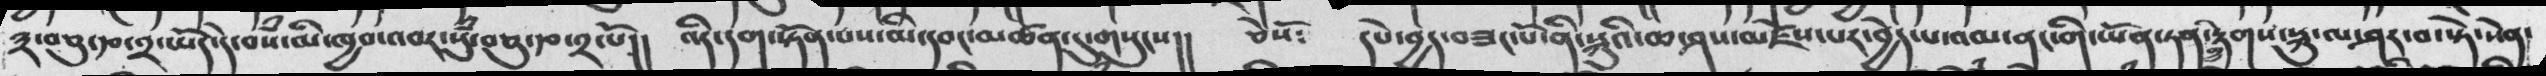༣་བཅུ་རྩ་༢་ཡོད་དེ་བསཾ་མི་ཁྱབ་འབར་སུཾ་བཅུ་རྩ་༢་པོ།།  འདི་དག་སྟོན་པས་མི་དབང་མཚན་དུ་གསུངས།།  ཅེསོ༴   དཔེ་བྱད་བཟང་པོ་ན་སྐུའི་ཆ་ཤས་མཛེས་པར་བྱེད་པ་འམ་ནང་གི་ཡོན་ཏན་གྱི་རྟགས་སྐུ་ལ་ཤར་བ་སྟེ་སེན་
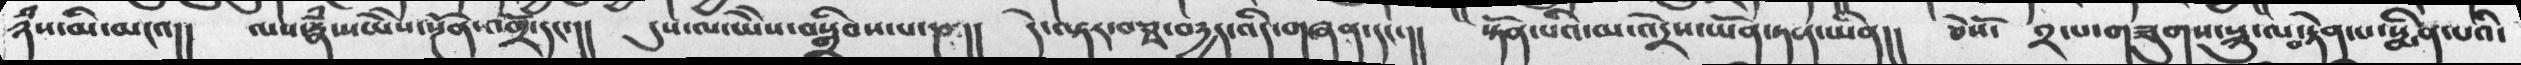ཉཾས་མི་མངའ།།  ལས་རྣྃས་ཡེེས་སྔོན་འགྲོ་དང་།།  དུས་ལ་ཡེེས་བསྒྲིབས་པ་ཎ།།  དེ་ལྟར་བཅྭ་བདྱད་འདི་གཞན་དང་།།  སྟོན་པའི་མ་འདྲེས་ཡོན་ཏན་ཡིན།།  ཅེསོ༴  ༢་པ་གཟུགས་སྐུ་ལ་བརྟེན་པ་སྨིན་པའི་
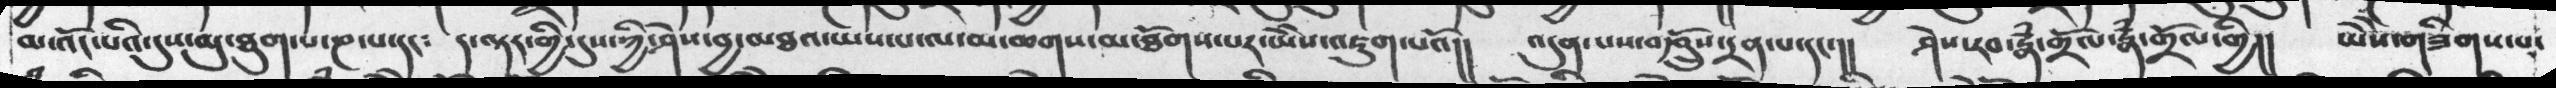མ་འོང་པའི་དུས་མུ་ཐུག་པ་ཎ་པ་དང༴   ད་ལྟར་གྱི་དུས་ཀྱི་ཤེས་བྱ་མཐའ་ཡས་པ་ལ་མ་ཆགས་མ་ཐོགས་པར་ཡེེས་འཇུག་པའོ།།  འདུན་པས་བརྩྲོུས་དྲན་པ་དང་།།  ཤེས་རབ་རྣཾ་གྲོལ་རྣཾ་གྲོལ་གྱི།།  ཡེ་ཤེས་གཟིགས་པ་
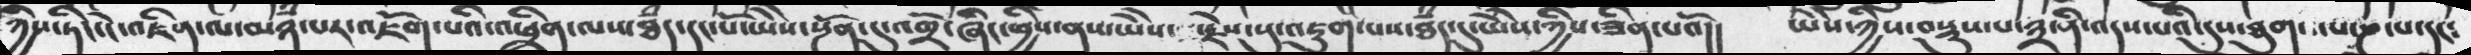ཀྱིས་ཏིང་ངེ་འཛིན་ལ་མཉཾ་པར་འཇོག་པའི་འཕྲིནལས་ཐཾད་དང་པོ་ཡེེས་སྔོན་དུ་འགྲོ་ཞིང་ཕྱིན་ནས་ཡེེས་རྗེས་སུ་འཇུག་པས་ཐཾད་དུ་ཡེེས་ཀྱིས་ཟིན་པའོ།།   ཡེེས་ཀྱིས་བསྡུས་པ་༣་ནི་འདས་པའི་དུས་ཐུག་པ་ཎ་པ་དང༴
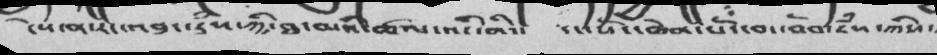དེ་ན་རང་འབྱུང་རྣཾས་ཀྱི་ཐ་མའི་ཚུལ་འདི་ནི་།   རང་ཕོང་ཆེན་པ་བ་བོན་རྣྃས་ཀྱིས་
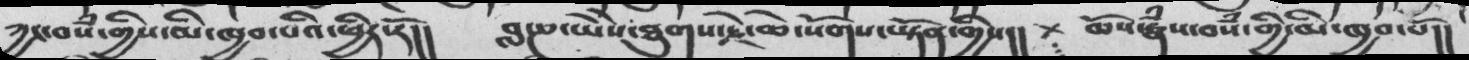ཀྱང་བསཾ་གྱིས་མི་ཁྱབ་པའི་ཕྱིར་རོ།།  བླ་ཎ་ཡེེས་ཐུགས་རྗེ་ཆེ་སོགས་ཡྟོན་གྱིས།།  + ཆོས་རྣཾས་བསཾ་གྱི་མི་ཁྱབ་པོ།།
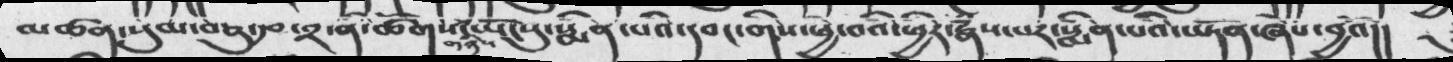མཚན་སུམ་བཅུ་རྩ་༢་ནི་ཚོགས་གཉིས་ཡོངསུ་སྨིན་པའི་དབང་གིས་ཕྱེ་བའི་ཕྱིར་རྣཾས་པར་སྨིན་པའི་ཡྟོན་ཞེས་བྱའོ།།
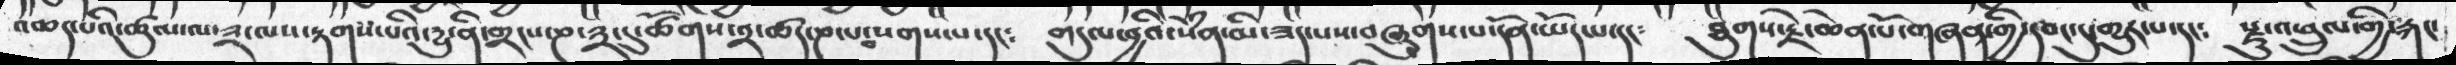འཆད་པའི་ཚུལ་ལ་༣་ལས་རྟགས་པའི་དྱུ་ནི་གྲངས་ཎ་༣་དུ་ཚོགས་༢་ཚད་ཎ་པ་བསགས་པ་དང༴  གདུལ་བྱའི་སེཾན་མི་ཟད་པས་བཞུགས་པ་དོན་ཡོད་པ་དང༴  ཐུགས་རྗེ་ཆེན་པོ་གཞན་གྱི་དབང་དུ་གྱུར་པ་དང༴  རྫུ་འཕྲུལ་གྱི་རྐང་
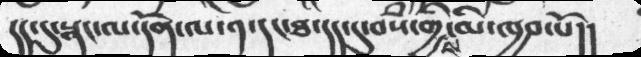དད་དུ་སྣང་ལ་དོན་ལ་༡་དང་ཐ་དད་དུ་བསཾ་གྱིས་མི་ཁྱབ་པོ།།
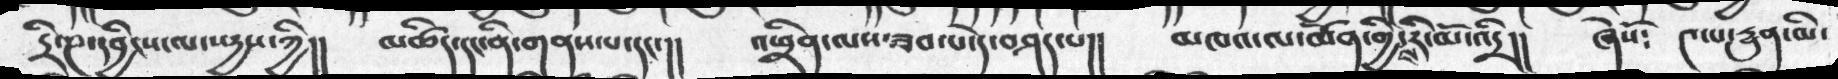དྲི་ཎ་དབྱིངས་ལ་སདྱས་ཀྱི།།  མཚིད་དང་ནི་གནས་པ་དང་།།  འཕྲིན་ལས་ཟབ་པ་དེ་བཤད་པ།།   མཁའ་ལ་ཚོན་གྱིས་རི་མ་འདྲི།།   ཞེསོ༴  ༤་དྱུན་མི་
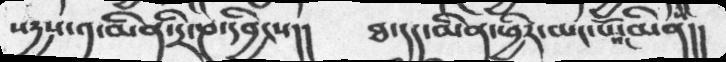སརྱས་༡་མིན་དྲི་ཎ་དབྱིངས།།      ཐ་དད་མིན་ཕྱིར་མང་པོའང་མིན།།
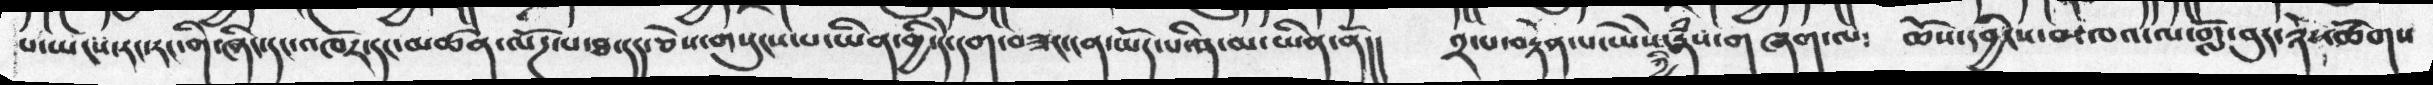པ་ཡངས་རང་རང་གི་ཞིང་དང་འཁོར་དང་མཚན་ལོཌ་པ་ཐ་དད་ཅེས་གསུངས་པ་ཡིན་གྱི་དེ་དདགད་བཟང་ངན་ཡོད་པའི་ནི་མ་ཡིན་ནོ།།   ༢་པ་བརྟེན་པ་ཡེེས་གྱི་རྣཾས་གཞག་ལ༴   ཆོས་དབྱིངས་མཁའ་ལ་གློ་བུར་ཉེས་ཚོགས་
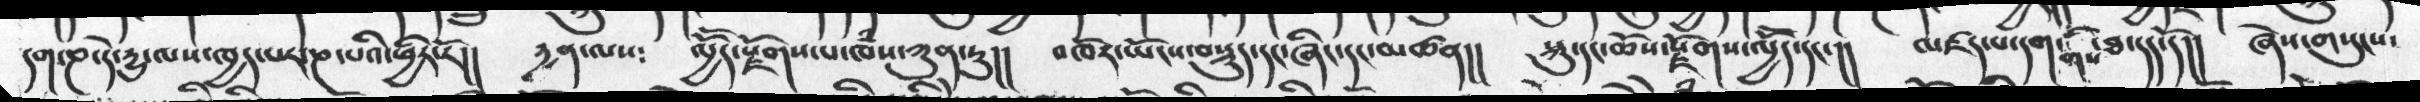དག་ཎ་དེ་རྱུ་ལས་ཁྱད་པར་ཎ་པའི་ཕྱིར་རོ།།   རྱན་ལས༴   ལྱོོད་སྫོགས་པ་ཁཾས་ཀུན་ཏུ།།  འཁོར་ཡོངས་བསྡུད་དང་ཞིང་དང་མཚན།།  སྐུ་དང་ཆོས་སྫོགས་ལྱོོད་དང་།།   མཛད་པ་དག་གིས་ཐ་དད་དོ།།  ཞེས་གསུངས་
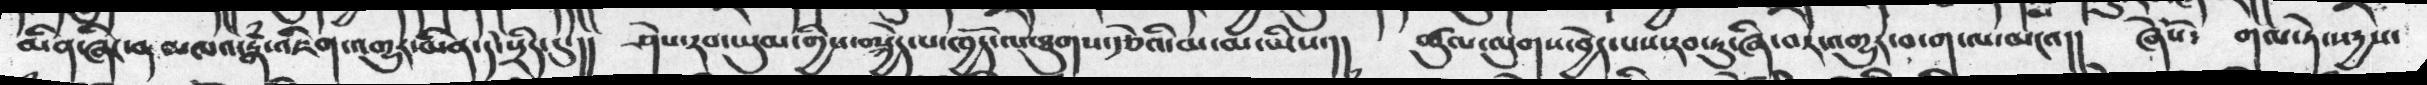མིན་ཞིང་ནམཁའ་རྣཾ་འཇིག་འགྱུར་མིན་དེ་སྲིད་དུ་།།   ཤརད་རབ་ཡུམ་གྱིས་བསྐྱེད་པ་ཁྱོད་ལ་ཐུགས་རྩེའི་མ་མ་ཡིས་།།  ཚུལ་ལུགས་བྱེད་པས་རབ་ཏུ་ཞི་བར་འགྱུར་བ་ག་ལ་མངའ།།   ཞེསོ་  གལ་ཏེ་སརྱས་
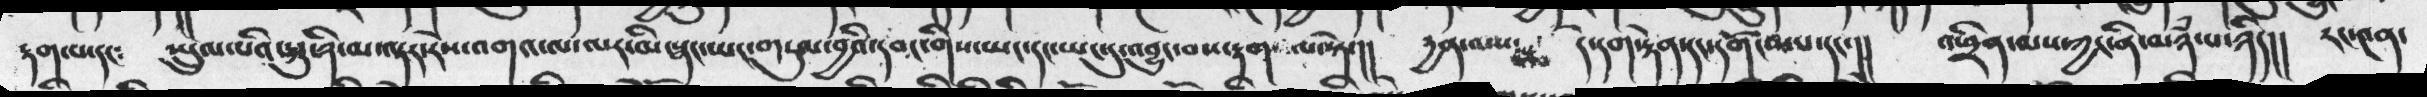རྟག་པ་དང༴   ཡྲུལ་པའི་སྐུ་ཉི་མ་ལྟར་རེས་འགའ་ལ་ལར་མི་སྣང་ཡང་གདུལ་བྱའི་དབང་གིས་ཡང་དང་ཡང་དུ་འབྱུང་བས་རྟག་ལ་སྟེ་།།   རྱན་ལས་   དེ་དག་རྟེན་དང་དགོངས་པ་དང་།།  འཕྲིན་ལས་ཀྱང་ནི་མཉཾ་༷པ་ཉིད།།   རང་༤ན་
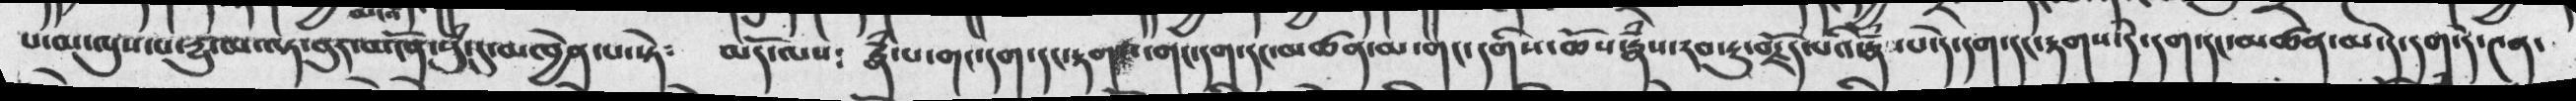པ་མ་ལུས་པ་རྱུ་མ་ལྟ་བུར་མངོན་སུཾ་དུ་མཁྱེན་པ་སྟེ༴   མདོ་ལས༴   རྣཾ་པ་གང་དག་དང་རྟག་གང་དག་དང་མཚན་མ་གང་དགིས་ཆོས་རྣཾས་རབ་ཏུ་བརྗོད་པའི་རྣཾ་པ་དེ་དག་དང་རྟགས་དེ་དག་དང་མཚན་པ་དེ་དག་དེ་༤ན་
